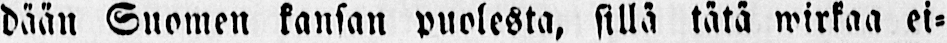dään Suomen kansan puolesta, sillä tätä wirkaa ei-
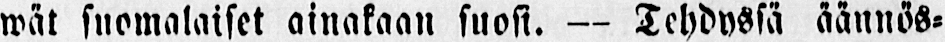wät suomalaiset ainakaan suosi. — Tehdyssä äännös-
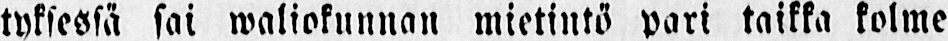tyksessä sai waliokunnan mietintö pari taikka kolme
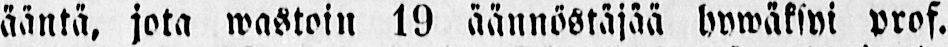ääntä, jota wastoin 19 äännöstäjää hywäksyi prof.
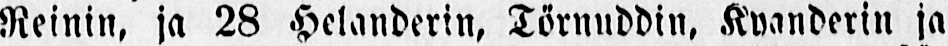Reinin, ja 28 Helanderin, Törnuddin, Kyanderin ja
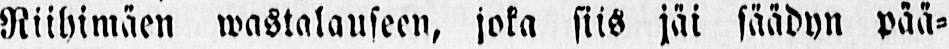Riihimäen wastalauseen, joka siis jäi säädyn pää-
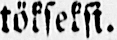tökseksi.
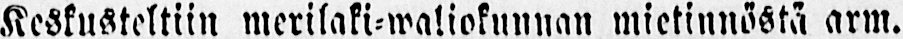Keskusteltiin merilaki-waliokunnan mietinnöstä arm.
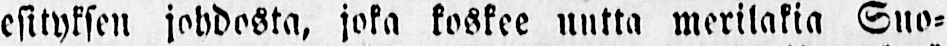esityksen johdosta, joka koskee uutta merilakia Suo-
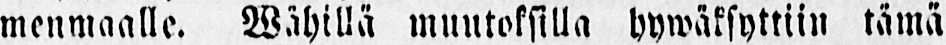menmaalle. Wähillä muutoksilla hywäksyttiin tämä
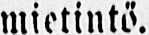mietintö.
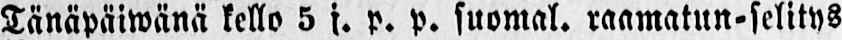Tänäpäiwänä kello 5 j. p. p. suomal. raamatun-selitys
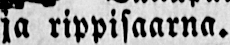ja rippisaarna.
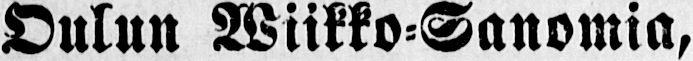Oulun Wiikko-Sanomia,
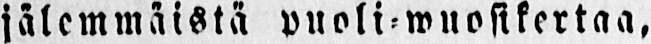jälemnäistä puoli-wuosikertaa,
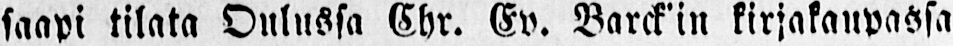saapi tilata Onlussa Chr. Ev. Barck’in kirjakaupassa
